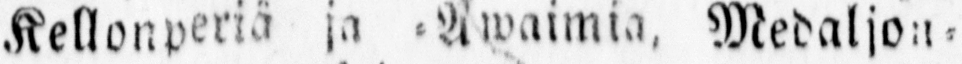Kellonperiä ja -Awaimia, Medaljon-
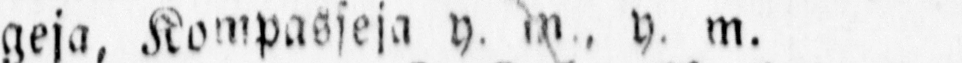geja, Kompassesa y. m. y. m.
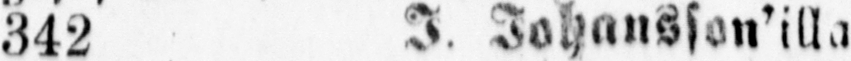342 I. Johansson’illa
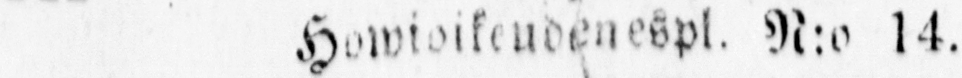Howioikeudenespl. N:o 14.
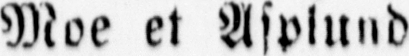Moe et Asplund
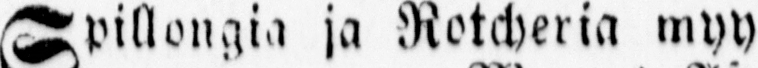Spillongia ja Rotcheria myy
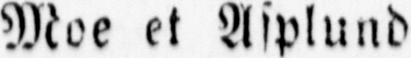Moe et Asplund.
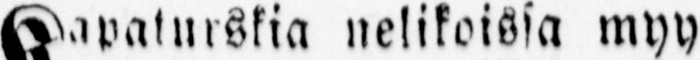Kapaturskia nelikoissa myy
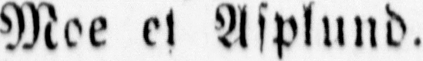Moe et Asplund.
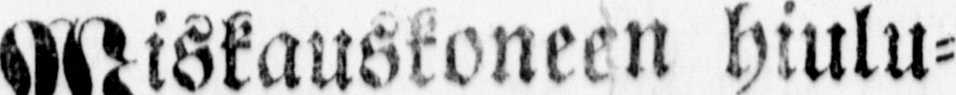Wiskauskoneen hiulu-
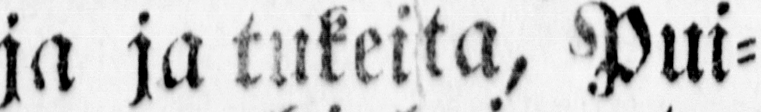ja ja tukeita, Pui-
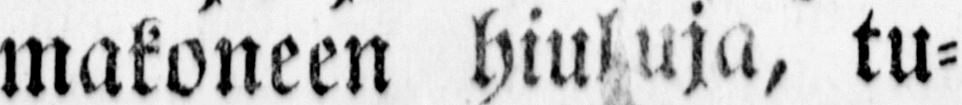makoneen hiuluja, tu-
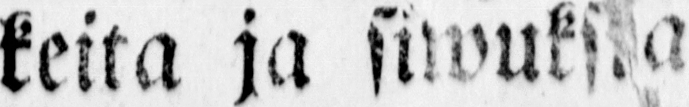keita ja siwuksia
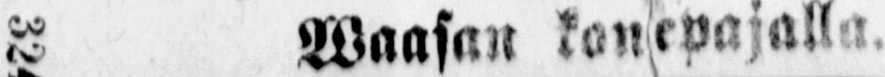324 Waasan konepajalla.
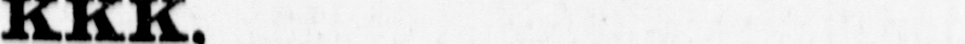KKK,
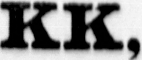KK,
